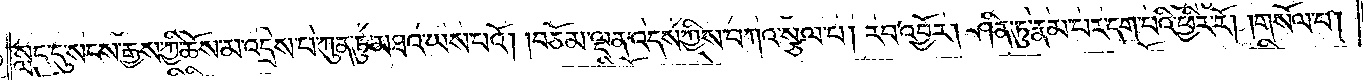སླད་དུ་སངས་རྒྱས་ཀྱི་ཆོས་མ་འདྲེས་པ་ཀུན་ཏུ་མཐའ་ཡས་པའོ། །བཅོམ་ལྡན་འདས་ཀྱིས་བཀའ་སྩལ་པ། རབ་འབྱོར། ཤིན་ཏུ་རྣམ་པར་དག་པའི་ཕྱིར་རོ། །གསོལ་པ།
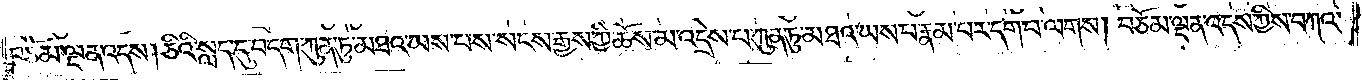བཅོམ་ལྡན་འདས། ཅིའི་སླད་དུ་བདག་ཀུན་ཏུ་མཐའ་ཡས་པས་སངས་རྒྱས་ཀྱི་ཆོས་མ་འདྲེས་པ་ཀུན་ཏུ་མཐའ་ཡས་པ་རྣམ་པར་དག་པ་ལགས། བཅོམ་ལྡན་འདས་ཀྱིས་བཀའ་
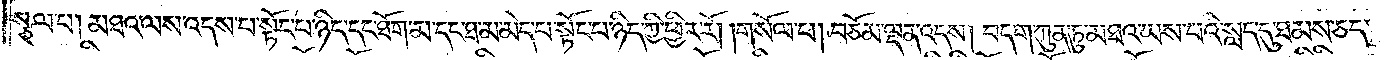སྩལ་པ། མཐའ་ལས་འདས་པ་སྟོང་པ་ཉིད་དང་ཐོག་མ་དང་ཐ་མ་མེད་པ་སྟོང་པ་ཉིད་ཀྱི་ཕྱིར་རོ། །གསོལ་པ། བཅོམ་ལྡན་འདས། བདག་ཀུན་ཏུ་མཐའ་ཡས་པའི་སླད་དུ་ཐམས་ཅད་
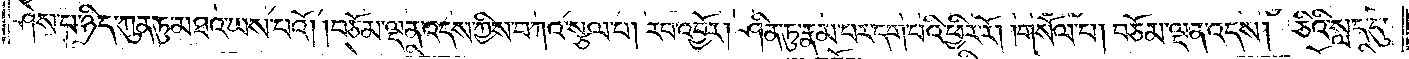ཤེས་པ་ཉིད་ཀུན་ཏུ་མཐའ་ཡས་པའོ། །བཅོམ་ལྡན་འདས་ཀྱིས་བཀའ་སྩལ་པ། རབ་འབྱོར། ཤིན་ཏུ་རྣམ་པར་དག་པའི་ཕྱིར་རོ། །གསོལ་པ། བཅོམ་ལྡན་འདས། ཅིའི་སླད་དུ་
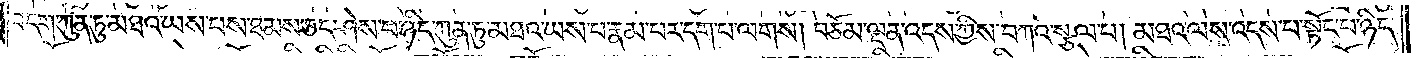བདག་ཀུན་ཏུ་མཐའ་ཡས་པས་ཐམས་ཅད་ཤེས་པ་ཉིད་ཀུན་ཏུ་མཐའ་ཡས་པ་རྣམ་པར་དག་པ་ལགས། བཅོམ་ལྡན་འདས་ཀྱིས་བཀའ་སྩལ་པ། མཐའ་ལས་འདས་པ་སྟོང་པ་ཉིད་
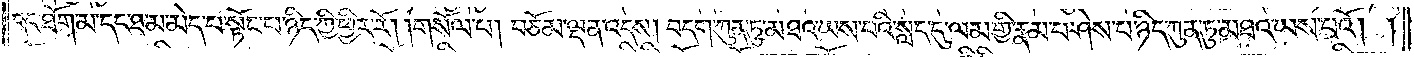དང་ཐོག་མ་དང་ཐ་མ་མེད་པ་སྟོང་པ་ཉིད་ཀྱི་ཕྱིར་རོ། །གསོལ་པ། བཅོམ་ལྡན་འདས། བདག་ཀུན་ཏུ་མཐའ་ཡས་པའི་སླད་དུ་ལམ་གྱི་རྣམ་པ་ཤེས་པ་ཉིད་ཀུན་ཏུ་མཐའ་ཡས་པའོ། །
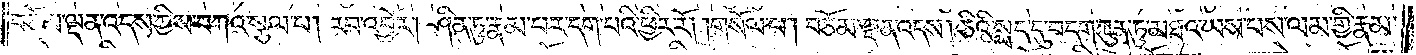བཅོམ་ལྡན་འདས་ཀྱིས་བཀའ་སྩལ་པ། རབ་འབྱོར། ཤིན་ཏུ་རྣམ་པར་དག་པའི་ཕྱིར་རོ། །གསོལ་པ། བཅོམ་ལྡན་འདས། ཅིའི་སླད་དུ་བདག་ཀུན་ཏུ་མཐའ་ཡས་པས་ལམ་གྱི་རྣམ་
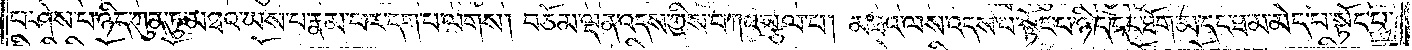པ་ཤེས་པ་ཉིད་ཀུན་ཏུ་མཐའ་ཡས་པ་རྣམ་པར་དག་པ་ལགས། བཅོམ་ལྡན་འདས་ཀྱིས་བཀའ་སྩལ་པ། མཐའ་ལས་འདས་པ་སྟོང་པ་ཉིད་དང་ཐོག་མ་དང་ཐ་མ་མེད་པ་སྟོང་པ་
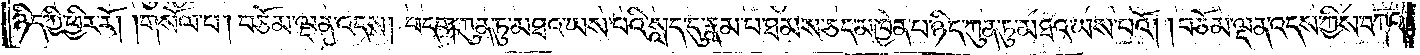ཉིད་ཀྱི་ཕྱིར་རོ། །གསོལ་པ། བཅོམ་ལྡན་འདས། བདག་ཀུན་ཏུ་མཐའ་ཡས་པའི་སླད་དུ་རྣམ་པ་ཐམས་ཅད་མཁྱེན་པ་ཉིད་ཀུན་ཏུ་མཐའ་ཡས་པའོ། །བཅོམ་ལྡན་འདས་ཀྱིས་བཀའ་
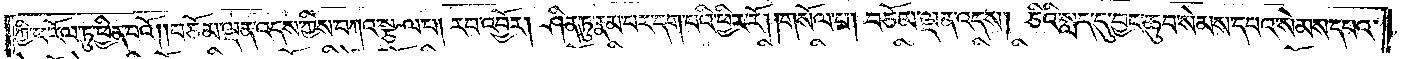ཀྱི་ཕ་རོལ་ཏུ་ཕྱིན་པའོ། །བཅོམ་ལྡན་འདས་ཀྱིས་བཀའ་སྩལ་པ། རབ་འབྱོར། ཤིན་ཏུ་རྣམ་པར་དག་པའི་ཕྱིར་རོ། །གསོལ་པ། བཅོམ་ལྡན་འདས། ཅིའི་སླད་དུ་བྱང་ཆུབ་སེམས་དཔའ་སེམས་དཔའ་
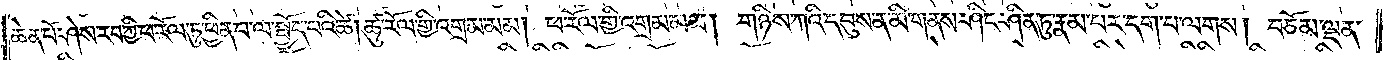ཆེན་པོ་ཤེས་རབ་ཀྱི་ཕ་རོལ་ཏུ་ཕྱིན་པ་ལ་སྤྱོད་པའི་ཚེ། ཚུ་རོལ་གྱི་འགྲམ་མམ། ཕ་རོལ་གྱི་འགྲམ་མམ། གཉིས་ཀའི་དབུས་ན་མི་གནས་ཤིང་ཤིན་ཏུ་རྣམ་པར་དག་པ་ལགས། བཅོམ་ལྡན་
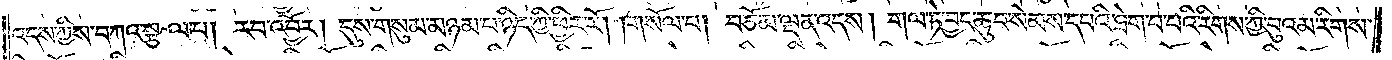འདས་ཀྱིས་བཀའ་སྩལ་པ། རབ་འབྱོར། དུས་གསུམ་མཉམ་པ་ཉིད་ཀྱི་ཕྱིར་རོ། །གསོལ་པ། བཅོམ་ལྡན་འདས། གལ་ཏེ་བྱང་ཆུབ་སེམས་དཔའི་ཐེག་པ་པའི་རིགས་ཀྱི་བུའམ་རིགས་
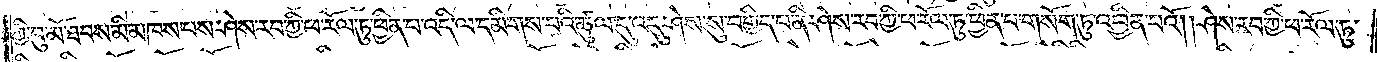ཀྱི་བུ་མོ་ཐབས་མི་མཁས་པས་ཤེས་རབ་ཀྱི་ཕ་རོལ་ཏུ་ཕྱིན་པ་འདི་ལ་དམིགས་པའི་ཚུལ་དུ་འདུ་ཤེས་སུ་བགྱིད་པ་ནི་ཤེས་རབ་ཀྱི་ཕ་རོལ་ཏུ་ཕྱིན་པ་གསོག་ཏུ་འབྱིན་པའོ། །ཤེས་རབ་ཀྱི་ཕ་རོལ་ཏུ་
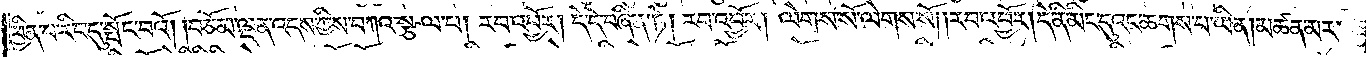ཕྱིན་པ་རིང་དུ་སྤོང་བའོ། །བཅོམ་ལྡན་འདས་ཀྱིས་བཀའ་སྩལ་པ། རབ་འབྱོར། དེ་དེ་བཞིན་ཏེ། རབ་འབྱོར། ལེགས་སོ་ལེགས་སོ། །རབ་འབྱོར། དེ་ནི་མིང་དུའང་ཆགས་པ་ཡིན། མཚན་མར་
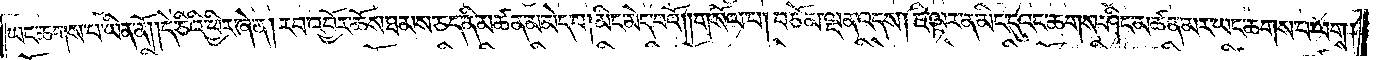ཡང་ཆགས་པ་ཡིན་ནོ། །དེ་ཅིའི་ཕྱིར་ཞེ་ན། རབ་འབྱོར་ཆོས་ཐམས་ཅད་ནི་མཚན་མ་མེད་པ། མིང་མེད་པའོ། གསོལ་པ། བཅོམ་ལྡན་འདས། ཇི་ལྟར་ན་མིང་དུའང་ཆགས་ཤིང་མཚན་མར་ཡང་ཆགས་པ་ལགས།
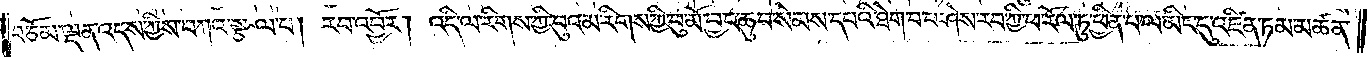བཅོམ་ལྡན་འདས་ཀྱིས་བཀའ་སྩལ་པ། རབ་འབྱོར། འདི་ལ་རིགས་ཀྱི་བུའམ་རིགས་ཀྱི་བུ་མོ་བྱང་ཆུབ་སེམས་དཔའི་ཐེག་པ་པ་ཤེས་རབ་ཀྱི་ཕ་རོལ་ཏུ་ཕྱིན་པ་ལ་མིང་དུ་འཛིན་ཏམ་མཚན་
